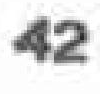42
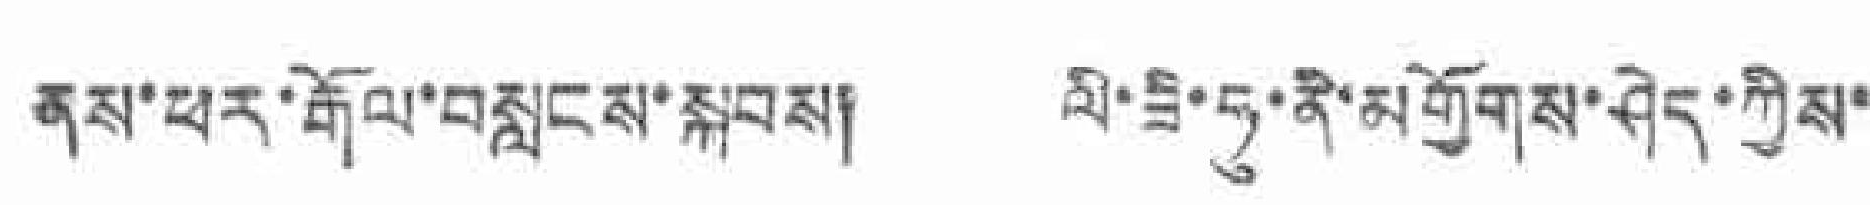ནས་ཕར་རྒོལ་བསླངས་སྐབས། ལི་ཟི་ཧུ་ནེ་མགྱོགས་ཤེད་ཀྱིས་
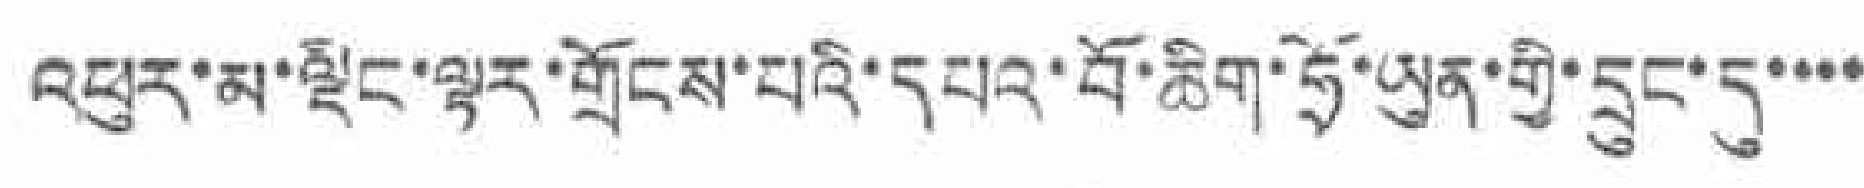འཕུར་མ་ལྡིང་ལྟར་གྲོངས་པའི་དཔའ་བོ་ཆིག་ཧྲོ་ཡུན་གྱི་དྲུང་དུ་་་་
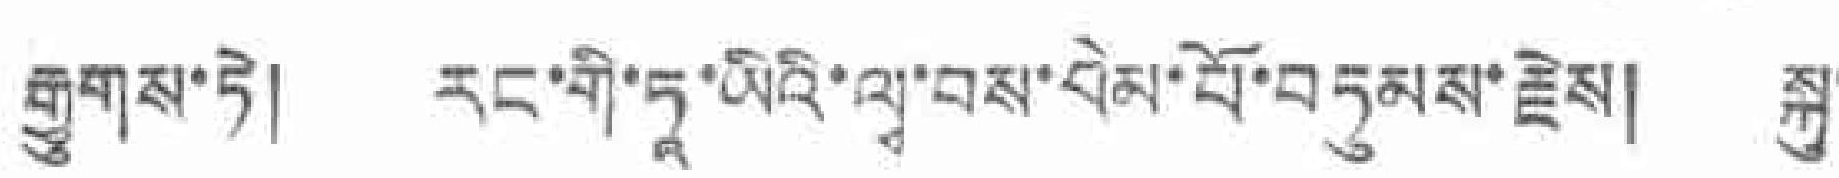རྒྱུགས་ཏེ། རང་གི་ཏཱ་ཡིའི་ལྭ་བས་བེམ་པོ་བཏུམས་རྗེས། སྐུ་
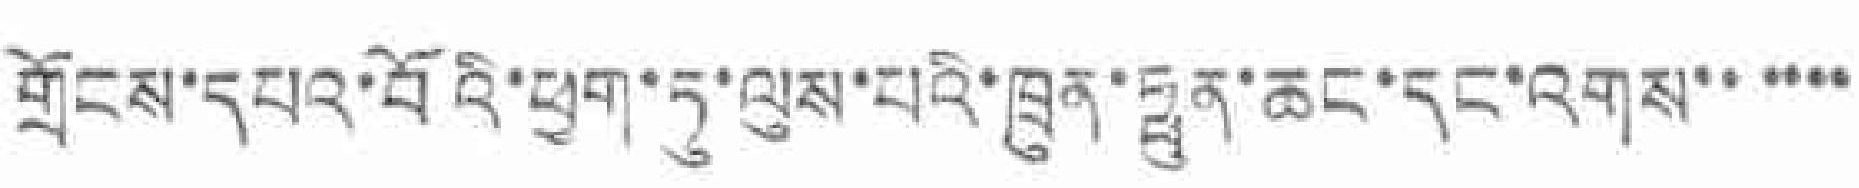གྲོངས་དཔའ་བོའི་ཕྱག་ཏུ་ལུས་པའི་ཁྲུན་ཧྥུན་ཆང་དང་འགས་་་་་་
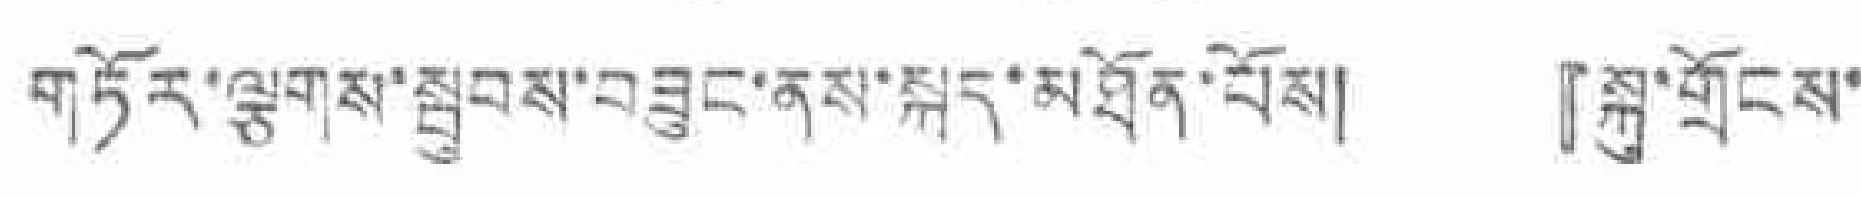གཏོར་ལྕགས་སྦུབས་བཟུང་ནས་སྐར་མཐོན་པོས། 『སྐུ་གྲོངས་
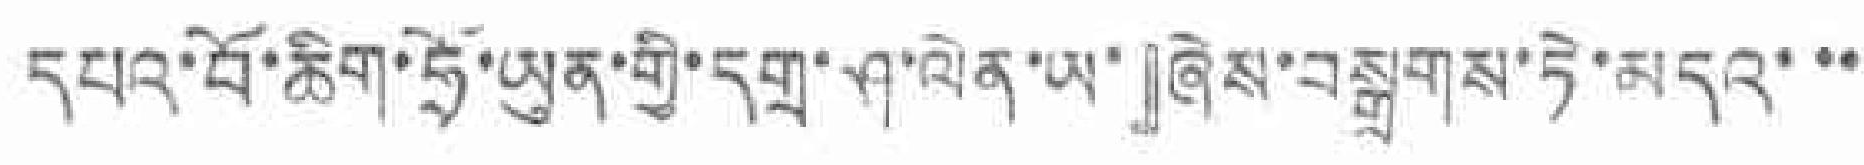དཔའ་བོ་ཆིག་ཧྲོ་ཡུན་གྱི་དགྲ་ཤ་ལེན་ཡ་』ཞེས་བསྒྲགས་ཏེ་མདའ་་་
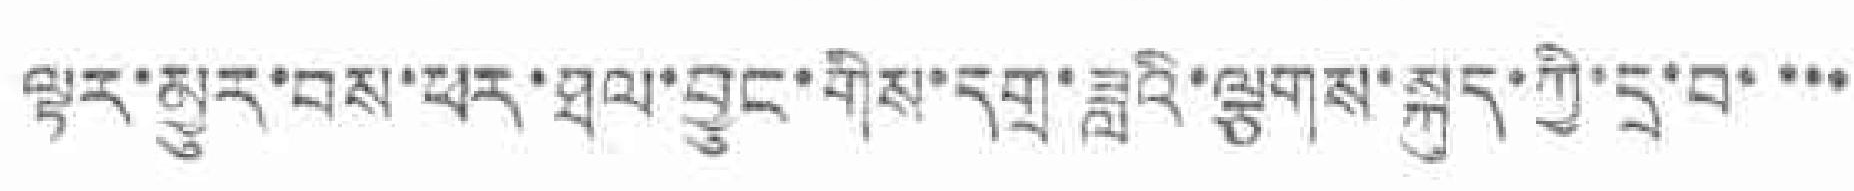ལྟར་མྱུར་བྱས་ཕར་ཐལ་བྱུང་གིས་དགྲ་ཟླའི་ལྕགས་སྐུད་ཀྱི་དྲ་བ་་་་
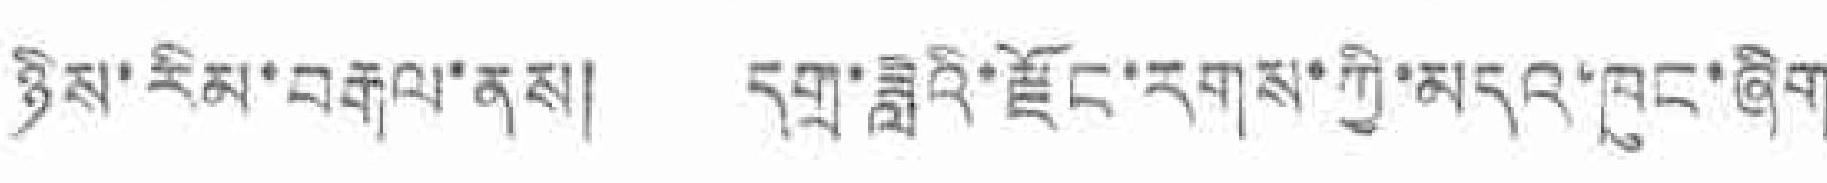ཉིས་རིམ་བརྒལ་ནས། དགྲ་ཟླའི་རྫོང་རགས་ཀྱི་མདའ་ཁུང་ཞིག
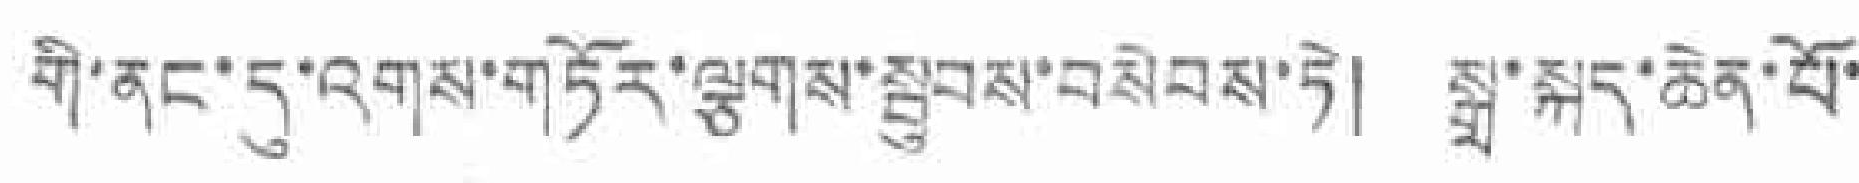གྱི་ནང་དུ་འགས་གཏོར་ལྕགས་སྦུབས་བསེབས་ཏེ། སྒྲ་སྐད་ཆེན་པོ་
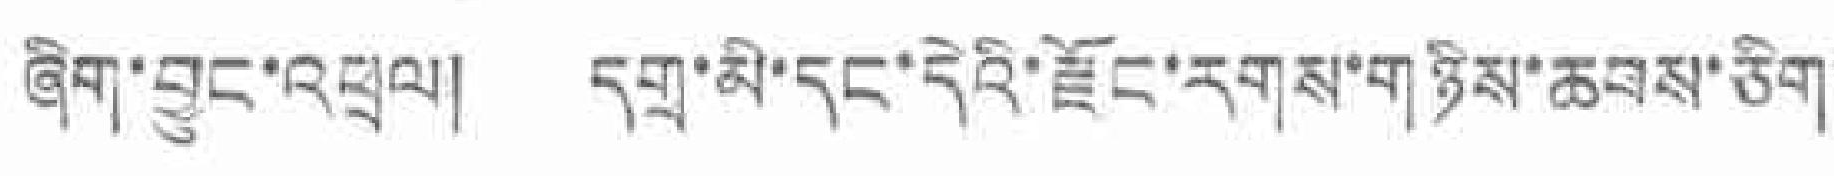ཞིག་བྱུང་འཕྲལ། དགྲ་མི་དང་དེའི་རྫོང་རགས་གཉིས་ཆབས་ཅིག་
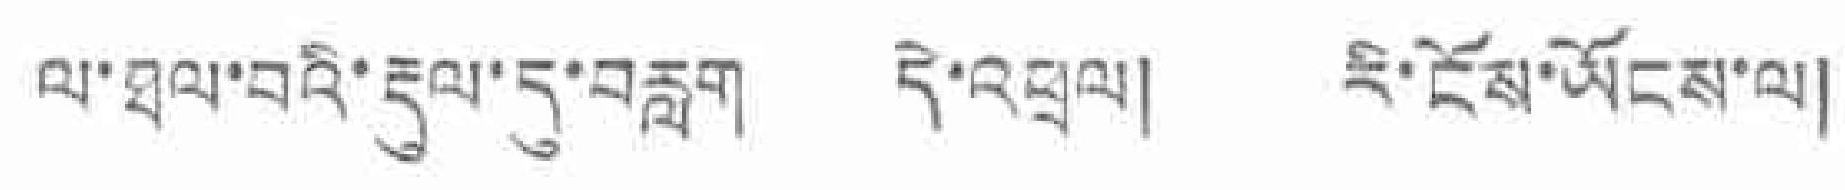ལ་ཐལ་བའི་རྡུལ་དུ་བརླག དེ་འཕྲལ། རི་ངོས་ཡོངས་ལ།
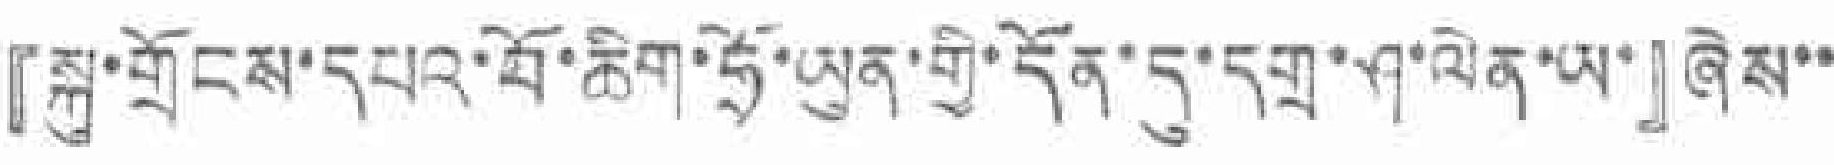『སྐུ་གྲོངས་དཔའ་བོ་ཆིག་ཧྲོ་ཡུན་གྱི་དོན་དུ་དགྲ་ཤ་ལེན་ཡ་』ཞེས་་
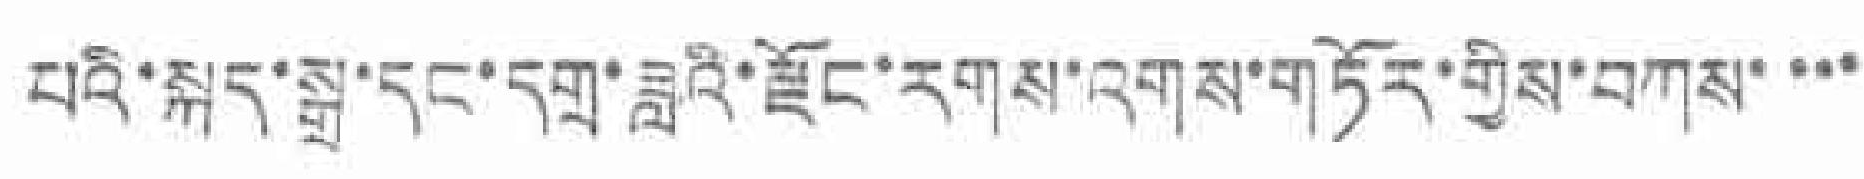པའི་སྐད་སྒྲ་དང་དགྲ་ཟླའི་རྫོང་རགས་འགས་གཏོར་གྱིས་བཀས་་་་
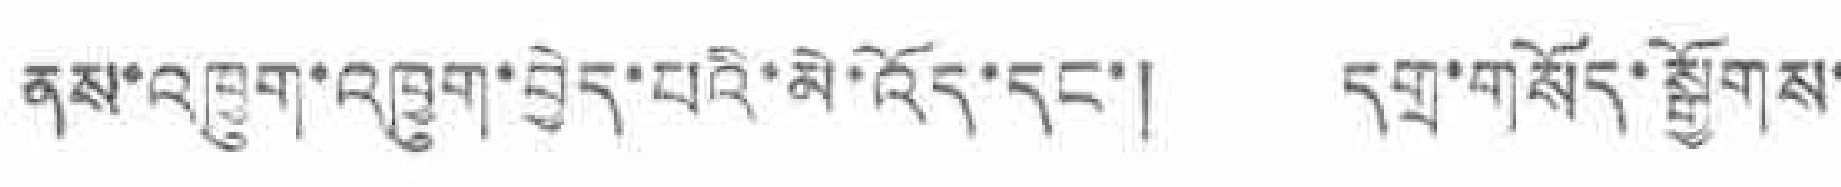ནས་འཁྱུག་འཁྱུག་བྱེད་པའི་མི་འོད་དང་། དགྲ་གསོད་སྒྱོགས་
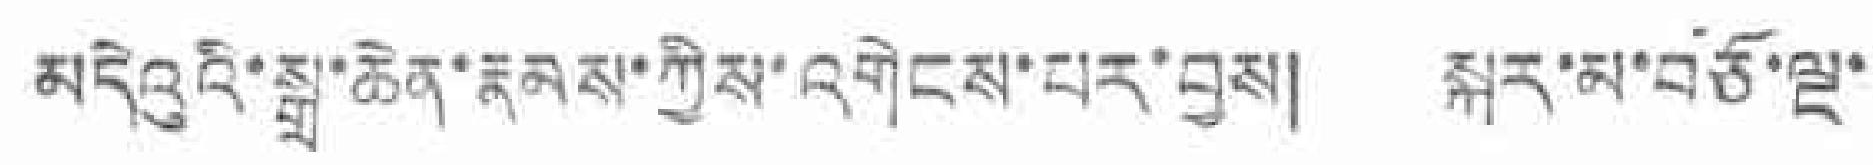མདེའུའི་སྒྲ་ཆེན་རྣམས་ཀྱིས་འགེངས་པར་བྱས། སྐར་མ་བཅོ་ལྔ་
